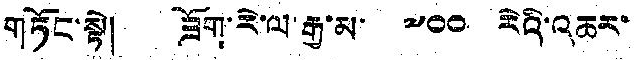གཏོང་སྟེ། ཟོག་རེ་ལ་རྒྱ་མ་ ༧༠༠ རེའི་འཆར་
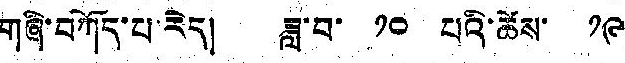གཞི་བཀོད་པ་རེད། ཟླ་བ་ ༡༠ པའི་ཚེས་ ༡༩
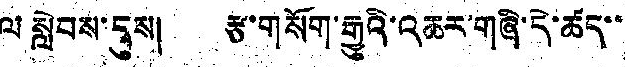ལ སླེབས་དུས། རྩ་གསོག་རྒྱུའི་འཆར་གཞི་དེ་ཚད་་
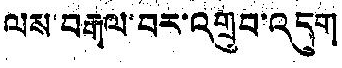ལས་བརྒལ་བར་འགྲུབ་འདུག
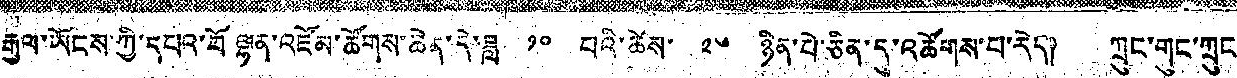རྒྱལ་ཡོངས་ཀྱི་དཔའ་བོ ལྷན་འཛོམ་ཚོགས་ཆེན་དེ་ཟླ་ ༡༠ བའི་ཚེས་ ༢༦ ཉིན་པེ་ཅིན་དུ་འཚོགས་པ་རེད། ཀྲུང་གུང་ཀྲུང་
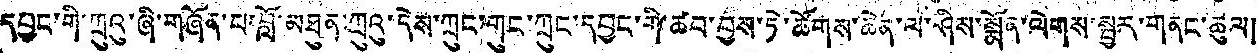དབྱང་གི་ཀྲུའུ་ཞི་གཞོན་པ་བློ་མཐུན་ཀྲུའུ་དེས་ཀྲུང་གུང་ཀྲུང་དབྱང་གི་ཚབ་བྱས་ཏེ་ཚོགས་ཆེན་ལ་ཤིས་སྨོན་ལེགས་སྦྱར་གནང་ཚུལ།
